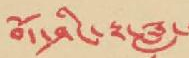བོད་ཤིང་རྟ་ཟླ་
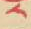༨
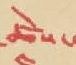ཚེས་
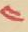༤
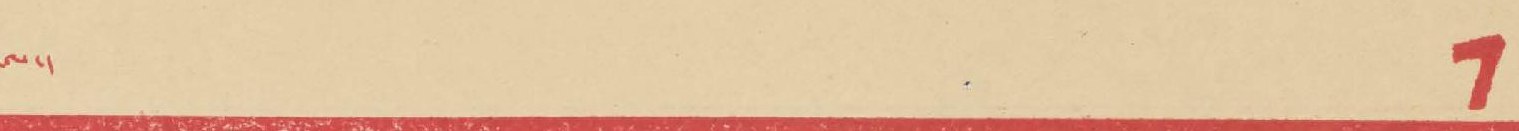ལ་། 1
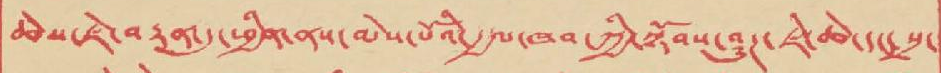ཆེས་ཇེ་བརྟན་དུ་ཕྱིན་ནས་མེས་པོའི་རྒྱལ་ཁབ་ཀྱི་སྟོབས་ཤུཊ་ཇེ་ཆེ་དང་ སྲ་
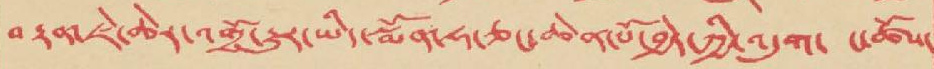བརྟན་ཇེ་ཆེར་འགྲོ་རྒྱུར་ཡིད་སྨོན་ཧ་ཅང་ཆེན་པོ་བྱེད་ཀྱི་འདུག་ ང་ཚོས་
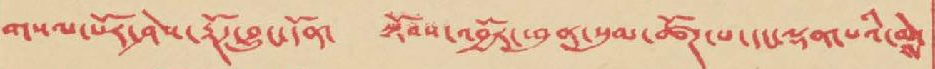གསལ་པོར་ཤེས་རྟོཊ་བྱུང་དོན་ སྟོབས་འབྱོར་ཕུན་སུམ་ཚོཊ་པ་དང་ལྡན་པའི་མེས་
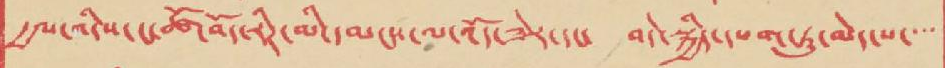རྒྱལ་འདིས་ང་ཚོ་བོད་རིཊ་མི་དམངས་ལ་འོད་ཟེར་དང་ བདེ་སྐྱིད་དཔག་ཏུ་མེད་པ་་་་
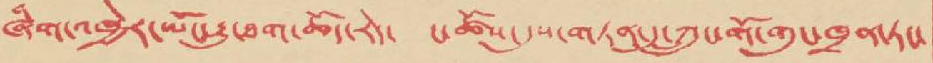ཞིག་འཁྱེར་ཡོང་རྒྱུ་ཐག་ཆོད་རེད་ ང་ཚོས་དུས་གཏན་དུ་ཀྲུང་གོ་གུང་ཁྲན་ཏང་
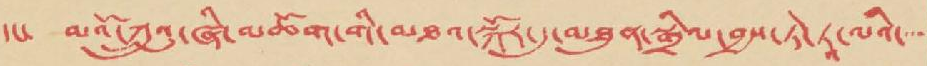དང་ མའོ་ཀྲུའུ་ཞི་མཆོག་གི་མཐའ་སྐོར་དུ་མཐུན་སྒྲིལ་བྱས་ཏེ་ཏཱ་ལའི་་་་
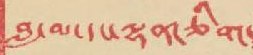བླ་མ་དང་ལྷན་ཅིག་
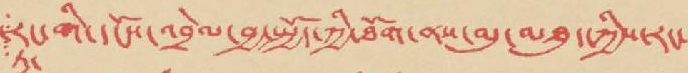རང་གི་དངོས་འབྲེལ་བྱ་སྤྱོད་ཀྱི་ཐོག་ནས་མུ་མཐུད་ཀྱིས་རང་
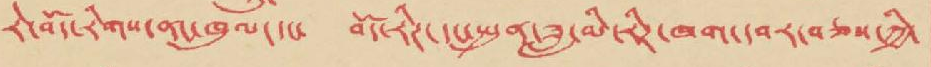རེ་བོད་རིགས་ནང་ཁུལ་དང་ བོད་རིཊ་དང་སྤུན་ཟླ་མི་རིཊ་ཁག་དབར་བཅས་ཀྱི་
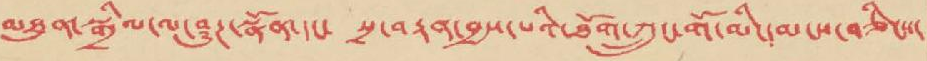མཐུན་སྒྲིལ་ལ་ཤུཊ་སྣོན་དང་ སྲ་བརྟན་བྱས་པའི་ཐོག་ཀྲུང་གོ་མི་དམངས་བཅིངས་
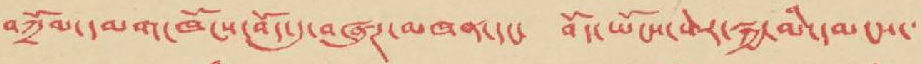བཀྲོལ་དམག་ཁོངས་བོད་དུ་བཞུཊ་མཁན་དང་ བོད་ཡོངས་སེར་སྐྱ་མི་དམངས་་
